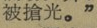被搶光。”
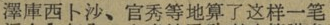澤庫西卜沙、官秀等地算了这样一笔
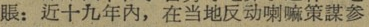賬：近十九年内，在当地反动喇嘛策謀参
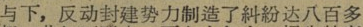与下，反动封建势力制造了糾紛达八百多
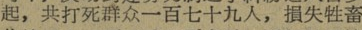起，共打死群众一百七十九人，損失牲畜
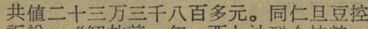共值二十三万三千八百多元。同仁旦豆控
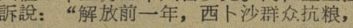訴說：“解放前一年，西卜沙群众抗粮，
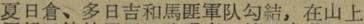夏日倉、多日吉和馬匪軍队勾結，在山上
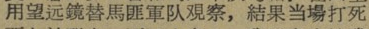用望远鏡替馬匪軍队覌察，結果当場打死
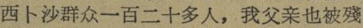西卜沙群众一百二十多人，我父亲也被殘
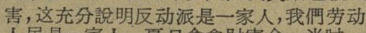害，这充分說明反动派是一家人，我們劳动
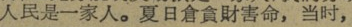人民是一家人。夏日倉貪財害命，当时，
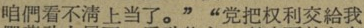咱們看不清上当了。”“党把权力交給我
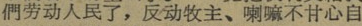們劳动人民了，反动牧主、喇嘛不甘心自
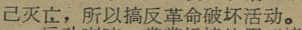己灭亡，所以搞反革命破坏活动。
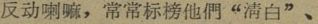反动喇嘛，常常标榜他們“清白”、
